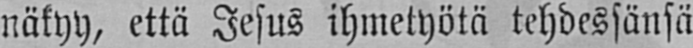näkyy, että Jesus ihmetyötä tehdessänsä
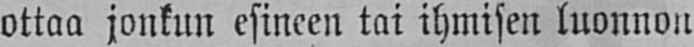ottaa jonkun esineen tai ihmisen luonnon
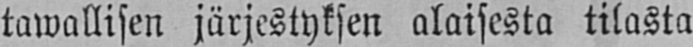tawallisen järjestyksen alaisesta tilasta
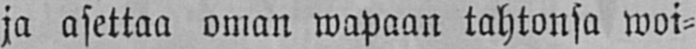ja asettaa oman wapaan tahtonsa woi-
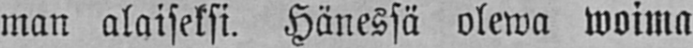man alaiseksi. Hänessä olewa woima
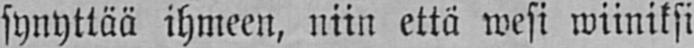synyttää ihmeen, niin että wesi wiiniksi
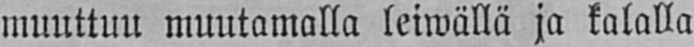muuttuu muutamalla leiwällä ja kalalla
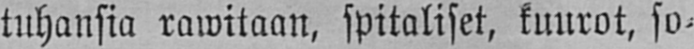tuhansia rawitaan, spitaliset, kuurot, so-
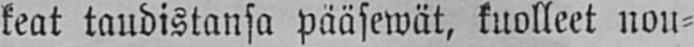keat taudistansa pääsewät, kuolleet nou-
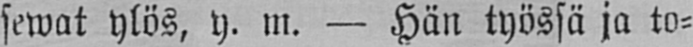sewat ylös, y. m. — Hän työssä ja to-
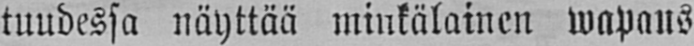tuudessa näyttää minkälainen wapaus
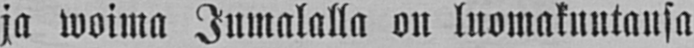ja woima Jumalalla on luomakuntansa
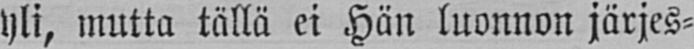yli, mutta tällä ei Hän luonnon järjes-
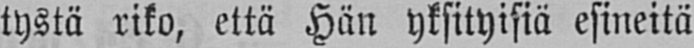tystä riko, että Hän yksityisiä esineitä
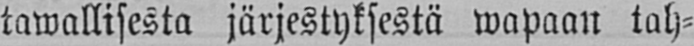tawallisesta järjestyksestä wapaan tah-
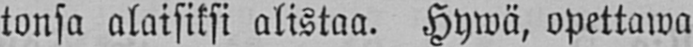tonsa alaisiksi alistaa. Hywä, opettawa
